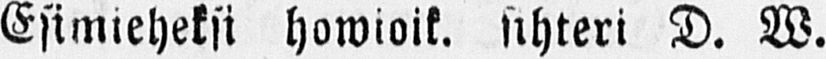Esimieheksi howioik. siteri D. W.
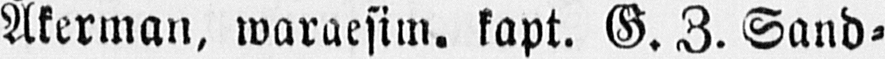Åkerman, waraesim. kapt. G.Z. Sand-
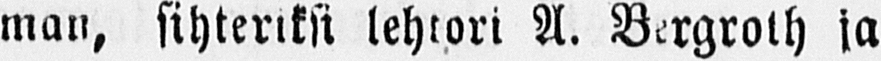man, sihteriksi lehtori A. Bergroth ja
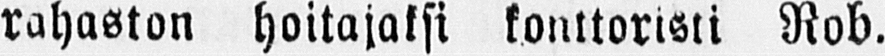rahaston hoitajaksi konttoristi Rob.
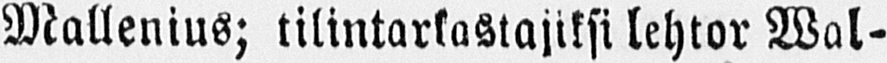Mallenius; tilintarlastajiksi lehtor Wal-
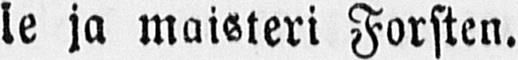je ja maisteri Forsten.
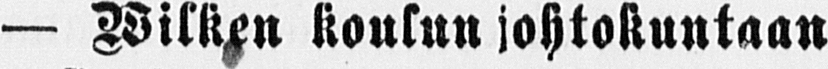— Wilken Koulun johtokuntaan
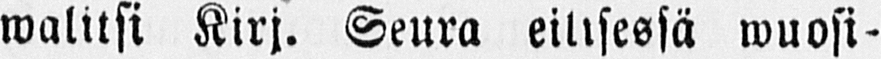walitsi Kirj. Seura eilisessä wuosi-
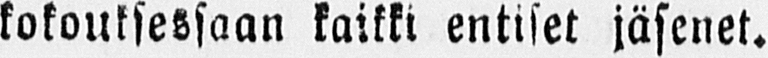kokouksessaan kaikki entiset jäsenet.
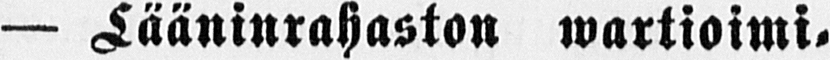— Lääninrahaston wartioimi-
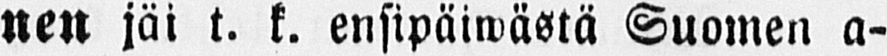nen jäi t. k. ensipäiwästä Suomen a-
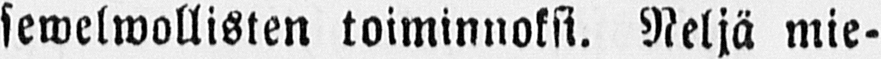sewelwollisten toiminnoksi. Neljä mie-
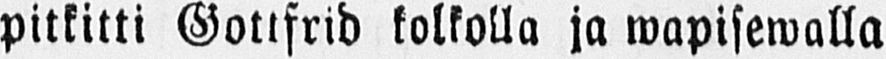pitkitti Gottfrid kolkolla ja wapisewalla
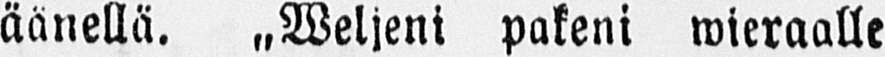äänellä. „Weljeni pakeni wieraalle
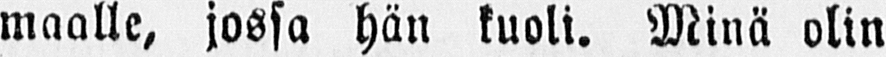maalle, jossa hän kuoli. Minä olin
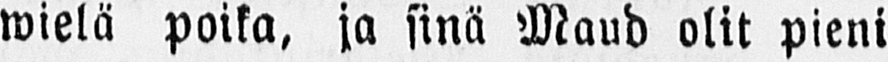wielä poika, ja sinä Maud olit pieni
